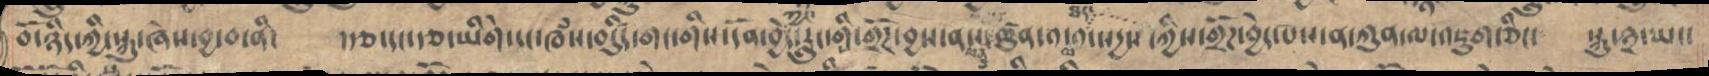བོ་ཉིད་ཀྱི་སྐུ་ཞེས་བྱ་བ་ནི།  །རྩ་དང་རྩ་ཡིགེ་དང་ཁཾས་བདིུ༹ད་གང་གིས་དོན་བྱེད་ཀྱི་རླང་གིས་གྲོཌ་བྱས་ནས་ཕན་ཚུན་༡་ལ་༡་ཐད་སདྱས་ཀྱིས་གྲོཌ་བྱེད་པས་ན་ཀུན་ལ་འཇུག་ཅིང་  སྐུ་༣་ཡང་
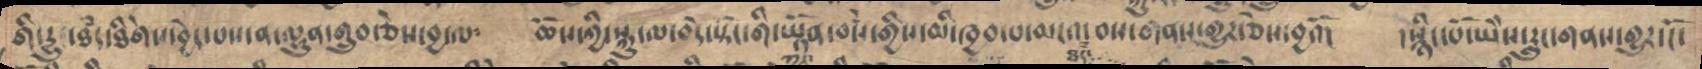གི་དྱུ་ཐཾད་ཐིགེས་བྱེད་པས་ན་ལྷུན་གྲུབ་ཅེས་བྱ་ལ   ཆོས་ཀྱི་སྐུ་ལ་བདེ་སྟོང་གི་ཡྟོན་བསཾ་གྱིས་མི་ཁྱབ་པ་མངའ་བས་གནས་གྱུར་ཅེས་བྱའོ།    །སྙིང་པོ་ཡེེས་རླུང་གནས་གྱུར་རོ་
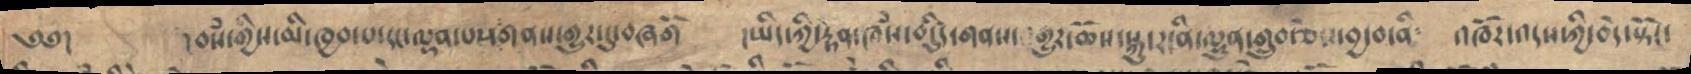༄༅། །བསཾ་གྱིས་མི་ཁྱབ་པ་དང་ལྡན་པས་གནས་གྱུར་དུ་བཞགོ །ཡིད་ཀྱི་རྟེན་ཁཾས་བདིུད་གནས་ གྱུར་ཆོས་སྐུ་རངནི་ལྷུན་གྲུབ་ཅེས་བྱ་བ་ནི༴ འཁོར་འདས་ཀྱི་བདེ་སྟོང་
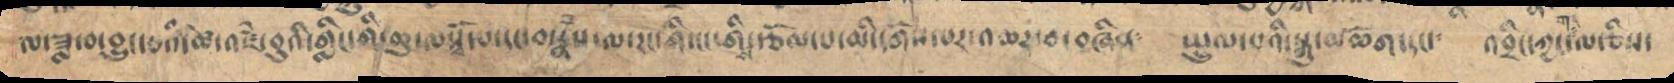ལ་ཟླ་བ་བྱུང་བའི་ཚེ་འཛཾ་བུའི་གླིང་གི་ཆུ་ལསྭོ་པ་དང་བ་རྣཾས་ལ་རང་གི་ངང་གིས་རྩོལ་པ་མི་དགོས་པར་འཆར་བ་བཞིན༴  སྤྲུལ་པའི་སྐུ་མཆོག་དང་   འབྲིང་ཀྱང་གང་ལ་ཅིས་
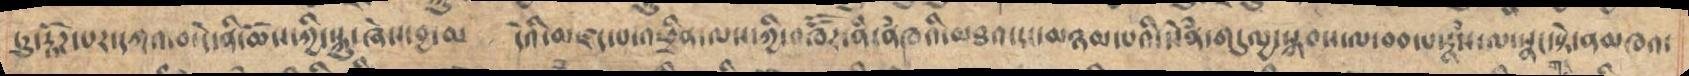ཏུ་རྟོཌ་པར་དཀའ་བ་དེ་ནི་ཆོས་ཀྱི་སྐུ་ཞེས་བྱ་ལ  དེའི་མཛད་པ་འཕྲིན་ལས་ཀྱི་འཁོོར་ནཾ་ནཾམཁའི་མཐའ་དང་མཉམ་པའི་སེཾན་གདུལྱ་སྐབས་ལ་བབ་པ་རྣཾས་ལ་སྣང་སྟེ་ནམཁའ་
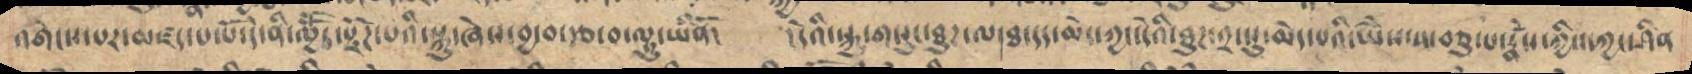འགེངས་པར་མཛད་པ་པོ་དེ་ནི་ལྱོོད་རྫོཌ་པའི་སྐུ་ཞེས་བྱ་བ་རྩ་བ་ལྟུ་ཡིནོ།   །དེའི་སྐུ་གསུང་ཐུཌ་ལ་ཐ་དད་མེད་ཀྱང་དེའི་ཐུཌ་༢་སུ་མེད་པའི་ཡེེས་ས་་བཅུ་པ་རྣྃས་ཀྱི་ཀྱང་ཤིན
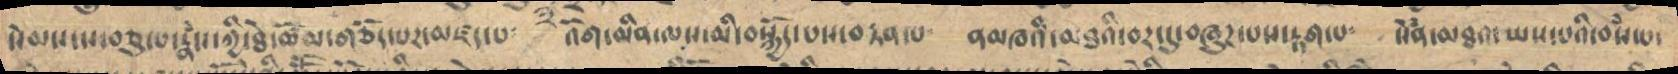སེམས་ས་བཅུ་པ་རྣཾས་ཀྱི་ཐེ་ཚོམ་གཅོད་པར་མཛད་པ༴ འོག་མིན་ལས་མི་བསྐྱོད་པས་བརྟན་པ ནམཁའི་མཐའི་བར་དུ་བཞུཌ་པས་རྟག་པ༴ སེཾན་མཐའ་ཡས་པའི་བསཾ་པ་
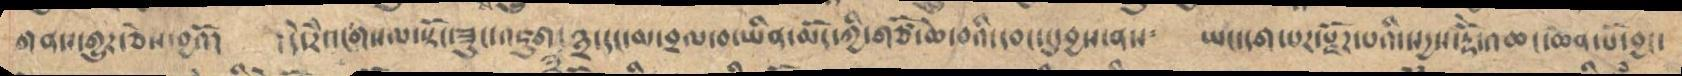གནས་གྱུར་ཅེས་བྱའོ། །དེ་རེེས་གསལ་སྟོང་ཟུང་འཇུག་༣་དང་མ་བྲལ་བ་ཡིན་མོད་ཀྱི་གཙོ་ཆེ་བའི་དབང་དུ་བྱས་ནས༴ ཡང་དག་པར་སྫོཌ་པའི་སདྱས་རྡོེ་འཆང་ཆེན་པོ་བྱང་
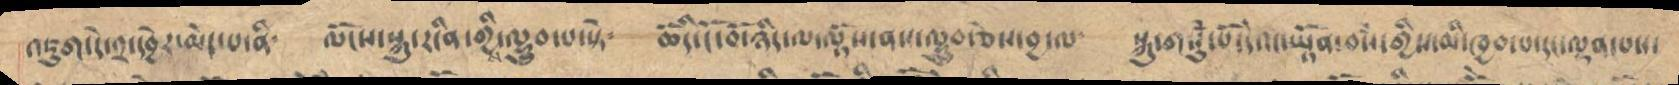འཇུག་དེ་༢་དབྱེར་མེད་པ་ནི   ལོངས་སྐུ་རངིན་གྱིས་ལྷུབ་པ་སྟེ     ཆོདི་ངོ་བོ་ཉིད་ལ་ལྟོས་ནས་ལྷུབ་ཅེས་བྱ་ལ་   སྐུ་གསུཾ་པོ་དེའང་ཡྟོན་བསཾ་གྱིས་མི་ཁྱབ་པ་དང་ལྡན་པས་
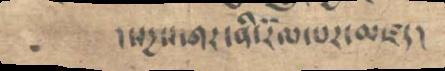།སདྱས་གར་ནི་རོལ་པར་མཛད།
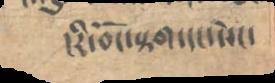།རི་བོང་སྟག་དང་སེང་
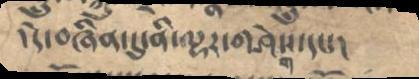།དེ་བཞིན་དུ་ནི་ལྷར་གཤེགས་དང་།
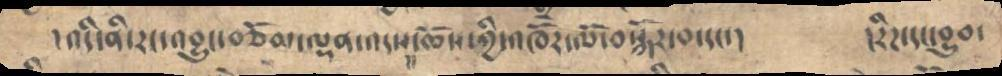།འདི་ནི་རང་འབྱུང་བཅོམ་ལྡན་འདས་ཆོས་ཀྱི་འཁོར་ལོ་བསྐོར་བ་དང་། །རིཌ་དང་བྱུབ་
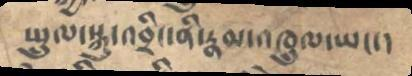སྤྲུལ་སྐུ་འབྲིང་ནི་རྣམ་འཁྲུལ་ཡང་།
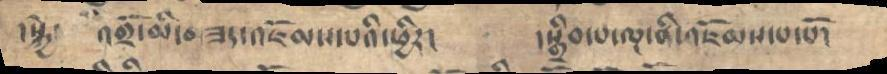།སྐྱེ་ འགྲོ་མི་བཟད་འཇོམས་པའི་ཕྱིར། །སྒྲིབ་པ་ལྔ་ནི་འཇོམས་པ་པོ།
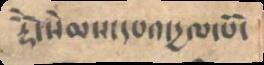རྡོེ་སེམས་དཔའ་དྱལ་པོ་
